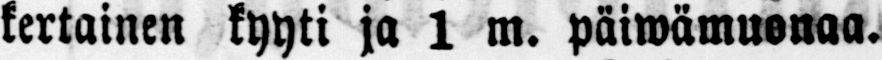kertainen kyyti ja 1 m. päiwämuonaa.
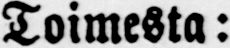Toimesta:
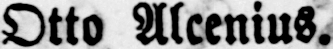Otto Alcenius.
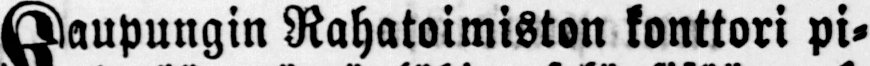Kaupungin Rahatoimiston konttori pi-
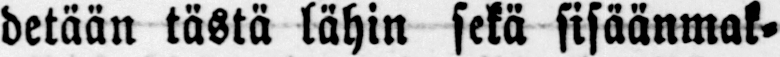detään tästä lähin sekä sisäänmak-
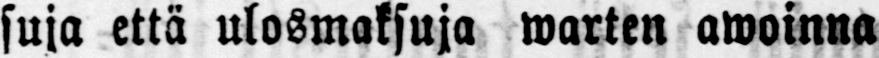suja että ulosmaksuja warten awoinna
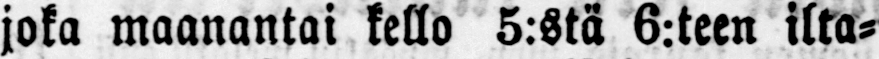joka maanantai kello 5:stä 6:teen ilta-
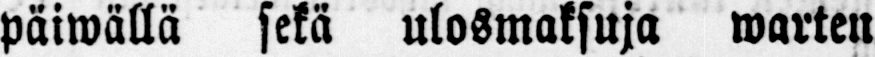päiwällä sekä ulosmaksuja warten
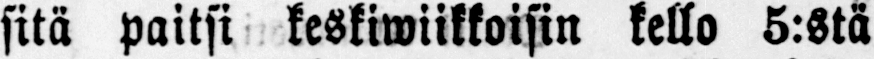sitä paitsi keskiwiikkoisin kello 5:stä
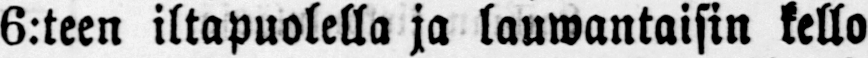6:teen iltapuolella ja lauwantaisin kello
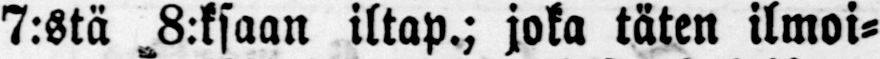7:stä 8:ksaan iltap.; joka täten ilmoi-
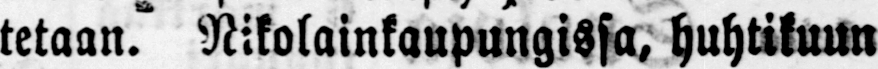tetaan. Nikolainkaupungissa, huhtikuun
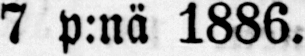7 p:nä 1886.
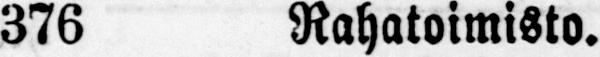376 Rahatoimisto.
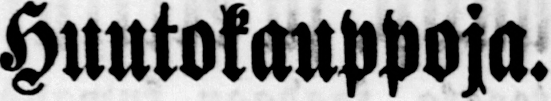Huutokauppoja.
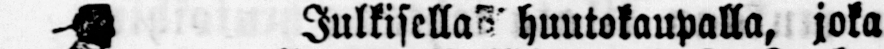Julkisella huutokaupalla, joka
